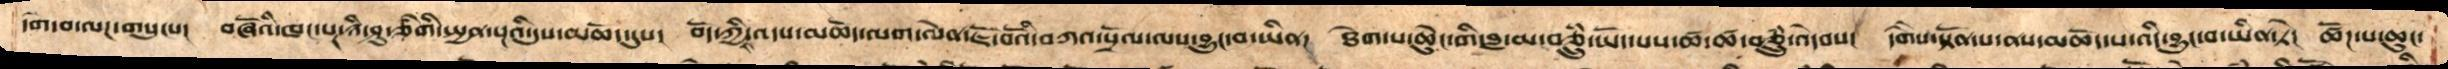དགེ་བ་ལཌ་གསུངས།  བཞོའི་ཁང་པར་ཉི་ཤུ་ཅིགི་སྤྱན་སྔའི་དུས་མཆོད་དུས། བོད་ཀྱིས་འདས་མཆོད་ལག་ལེན་ཇོ་བོའི་བཀའ་སྲོལ་ལས་བྱུང་བ་ཡིན།  ཐེག་པ་ཆེུང་གི་བླ་མ་བཅྲུཾ་ཡོད་པས་ཚ་ཚ་བཅྲུཾ་འདེབས།  དགཻས་སྟོན་པ་ནས་མཆོད་པ་འདི་བྱུང་བ་ཡིན་ཏེ།  ཚོཌ་པ་ཆུང་
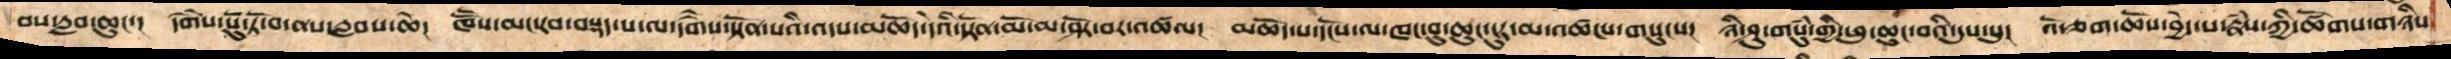བས་རླབ་ཆུང་།  དགཻས་པོུ་ཏོ་བ་ནས་རླབས་ཆེ།   ཁཽས་མང་རབ་བསྡད་པ་ལ་དགཻས་སྟོན་པའི་འདས་མཆོད་དེའི་སྟོན་མོ་མ་ཤོར་བར་འཚལ།  མཆོད་པ་དངོས་ལ་ཁང་བུ་ཆུང་ངུར་མ་འཚངས་གསུངས།  ཉི་ཤུ་གསུཾ་གྱི་ཕུ་ཆུང་བའི་དུས་སུ།  འོ་ཅག་ཆོས་བྱེད་པ་རྣཾས་ཀྱི་ཚོགས་གཉིས
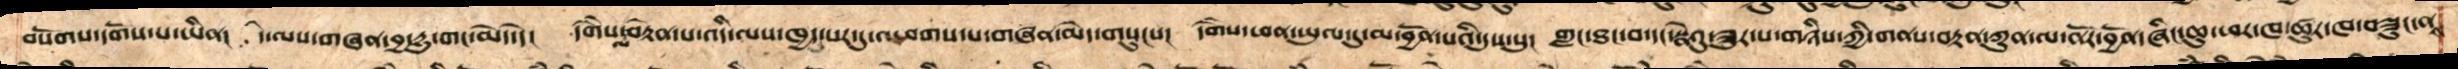བསོགས་དགོས་པ་ཡིན།  དེ་ལས་གཞན་བྱ་དྱུ་གང་མེད་དེ།  དགཻས་ལ་བརྟེན་པ་འདི་ལས་ཁྱད་པར་དུ་འཕགས་པ་གཞན་མེད་གསུངས།  དགཻས་ཕན་ཡུལ་དུ་མ་བྱོན་པའི་དུས་སུ། གླང་ཐང་བ་དང་སྣེའུ་ཟུར་པ་གཉིས་ཀྱི་གནས་བརྟན་ཀུན་ལ་ནོར་བྱོན་ཞིང་ཆུ་ཕར་ཁ་ཚུར་ཁ་བཟུང་ནས
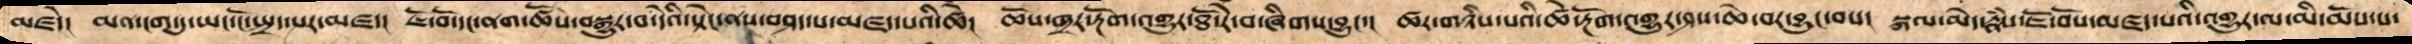མཛདེ།  མན་ངག་དུ་ཡང་ངོ་སྤྲད་པར་མཛད།  ཇོ་བོ་དང་ནག་ཚོས་བསྒྱུར་བ་དེའི་སྟེང་ནས་བཤད་པ་མཛད་པའི་ཚེ།  ཆོས་ཁྲར་རྔོག་འགྱུར་ཐོ་རེ་བ་ཞིགས་བྱུང་།  ཚར་གཉིས་པའི་ཚེ་རྔོག་འགྱུར་ཤས་ཆེ་བར་བྱུང་བས།  སྐལ་མེད་རྣཾས་ཇོ་བོས་མཛད་པའི་འགྱུར་ལ་མི་མོས་པ་
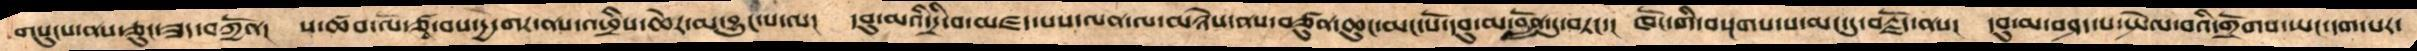གསུངས་ནས་ཅུང་ཟད་བཀྱོན།  ས་ཚབ་ལོཙཱ་བས་དྱ་གར་ནས་འཕྲིས་ཆེར་མ་བྱུང་པ་ལ།  དབུ་མའི་དྲི་བ་མཛད་པས་ལན་ལ་མཉེས་ནས་བཙུན་ཆུང་མང་པོ་དབུ་མ་བློན་དུ་བཏང་།  ཁོང་གི་བསྔགས་པ་མང་དུ་བརྗོད་ནས།  དབུ་མ་བཤད་པ་སྤེལ་བའི་གྲོགས་ཡང་དག་པར་
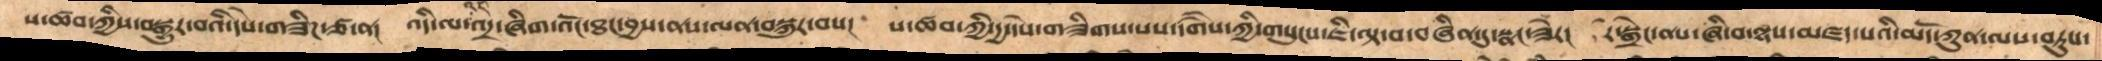ས་ཚབ་ཀྱིས་བསྒྱུར་བའི་དེས་གཟིཌ་ཙ་ན།  འདི་ལ་འདི་འདྲ་ཞིག་འོང་ཐང་བྱས་ནས་ལན་བསྐུར་བས། ས་ཚབ་ཀྱི་དྱ་དཔེ་གཟིགས་པས་དགཻས་ཀྱི་གསུངས་ཇི་ལྟ་བ་བཞིན་དུ་སྣང་ཟེར།  ར་སྒྲེང་ནས་ཞི་བ་ལྷས་མཛད་པའི་མདོ་ཀུན་ལས་བཏུས་
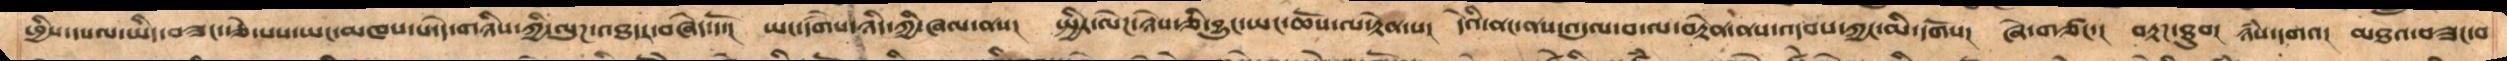ཕྱིས་དཔལ་ཡིད་བཟང་རྩེ་པས་ཡང་མཁས་པ་དེ་གཉིས་ཀྱི་ལུཌ་འཐདར་བཞེད་དོ་།   ཡང་དགཻས་ཉིད་ཀྱི་ཞལ་ནས།  སྤྱིར་ལེཌ་ཉེས་ཅི་བྱུང་ཡང་ཆོས་ལ་རྟེན་པ།  དེའི་ནང་ནས་་འདུལ་བ་ལ་བརྟེན་ནས་འདབས་ཀྱང་མི་དགོས།  ཞེ་གཙང་།  བརྟཌ་ཐུབ།  ཉཾས་དགའ།  མཐའ་བཟང་བ་
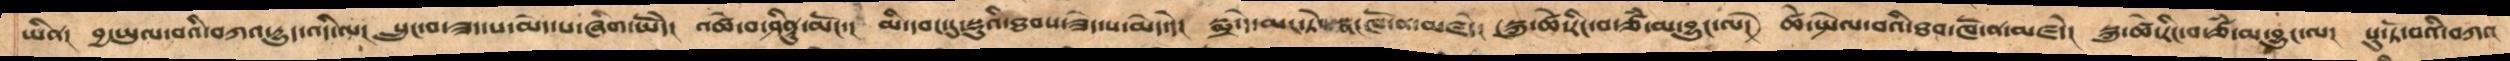ཡིན།   བྱ་ཡུལ་བའི་བཀའ་དྱུད་འདི་ལ།   སྲུང་བ་ཟད་པ་མེད་པ་ཞིག་ཡོདེ།  འཚེ་བ་ཤིནུ་མངོ་།  མི་དབང་དུ་སྡུའི་ཐབས་ཟེད་པ་མེད་དེ།   སྨྲ་དེ་མང་ཏེ་སྣང་ཁོ་ན་མཛདེ།   སྐུ་ཚེ་རིང་བ་ཙཾ་མ་བྱུང་ལོ། ཚེསྤེལ་བའི་ཐབ་ཁོ་ན་མཛདེ།   སྐུ་ཚེ་རིང་བ་ཙཾ་མ་བྱུང་ལ།  པུ་ཏོ་བའི་བཀའ
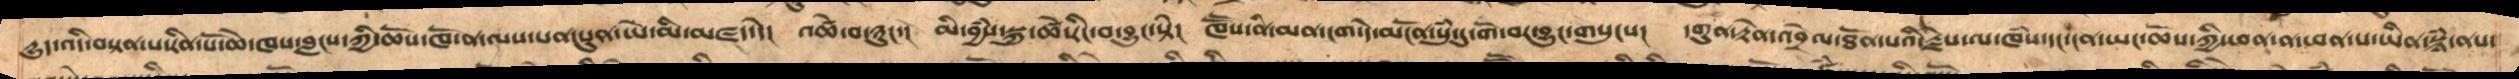དྱུད་འདི་བསྟན་པ་རིན་པོ་ཆེ་ཁས་བླངས་ཀྱི་ཆོས་ཁོ་ན་ལས་པན་པུན་ཡེ་མི་མཛད་དེ།  འཚེ་བ་ཉུང་། མི་བྱཾས་སྐུ་ཚེ་རིང་བ་བྱུང་སྟེ།  ཁཽས་ནི་མན་ངག་དེ་མངོན་སུཾ་དུ་གོ་བར་བྱུང་གསུངས།  དགུན་རྟེན་འབྲེལ་ཐོན་པའི་རྗེས་ལ་ཁཾས་དང་ངན་ཡང་ཆོས་ཀྱི་ཕན་ན་ཕན་པ་ཡིན་སྙཾ་ནས་
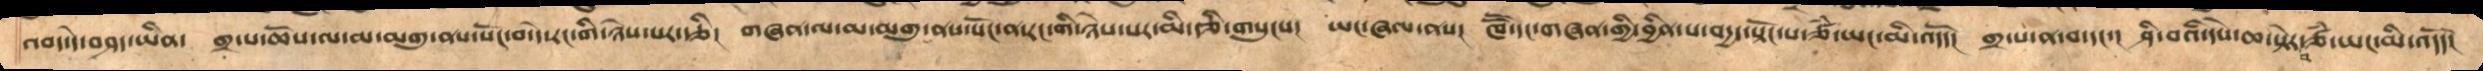འབད་དེ་བཤད་ཡིན   གྲ་པ་ཆོས་ལ་མ་མགུ་ནས་སོང་བ་དེ་རང་གི་ཉེས་པར་རྩི།  གཞན་ལ་མ་མགུ་ནས་སོང་ན་རང་གི་ཉེས་པར་མི་རྩི་གསུངས།  ཡང་ཞལ་ནས།  ཁཽ་དང་གཞན་གྱི་བྱིན་པའི་བདྱད་སྟོང་པ་ཙཾ་ཡང་མི་འདོད།  གྲ་པ་ན་བ་དང་།  ཤི་བའི་དཔེ་ཆ་སྟེར་བ་ཙཾ་ཡང་མི་འདོད།
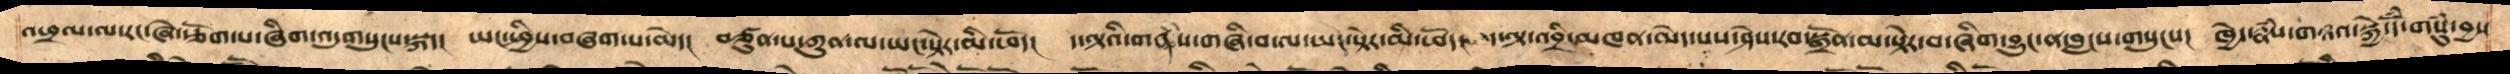འཕྲལ་ལ་རང་ཞེ་རྩོག་པ་ཞིག་འདུགསུངས་སྐད།  ཡང་ཕྱིས་བཞག་ས་མེད།  བཙུན་པ་ཀུན་ལ་ཡང་སྟེར་མི་ཕོད།  ད་ལྟའི་གནས་གཞི་བ་ལ་ཡང་སྟེར་མི་ཕོད།  ད་ལྟ་འབྲི་མཁན་མེད་པས་ཤེས་རབ་སྒྲོན་མ་སྟེར་བ་ཞིག་བྱུང་ན་བླངས་གསུངས།  ཁྱེད་རྣཾས་གཉའ་སྐྱེ་དོཾ་གསུཾ་བྱས་
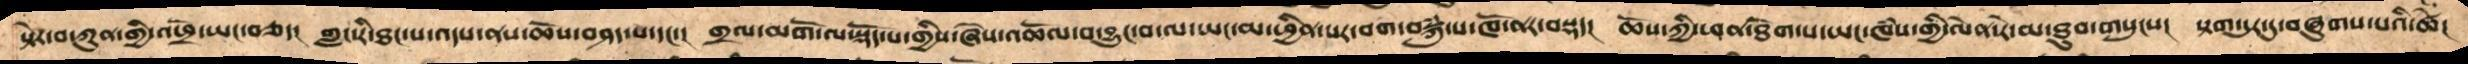སྟེར་བ་ཀུན་གྱི་འཕྲོ་ཡང་བཅད།  གླང་རི་ཐང་པ་འདས་ནས་ཆོས་བཤད་པ་དང་།  གྲལ་མགོ་ལ་སྡོད་པ་གྱིས་ཞེས་འཆོལ་བ་བྱུང་བ་ལ་ཡང་མ་ཕྱིན་པར་བག་བསྐུཾ་པ་ཁོ་ནར་བསྡད།  ཆོས་ཀྱི་ཕན་ཐོག་པ་ཡང་ཁཾས་གྱི་ལེན་རེ་མ་ཐུབ་གསུངས།  སྟག་དུར་དུ་བཞུགས་པའི་ཚེ།
